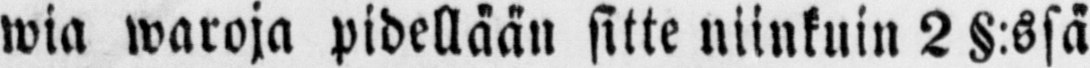wia waroja pidellään sitte niinkuin 2 §:ssä
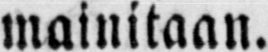mainitaan.
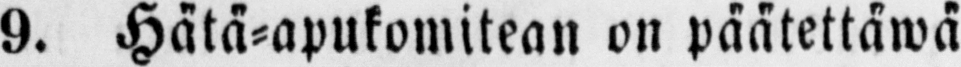§ 9. Hätä-apukomitean on päätettäwä
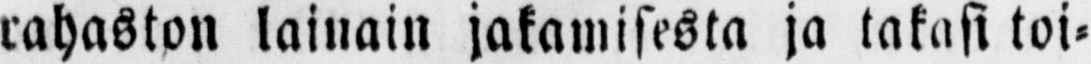rahaston lainain jakamisesta ja takasi toi-
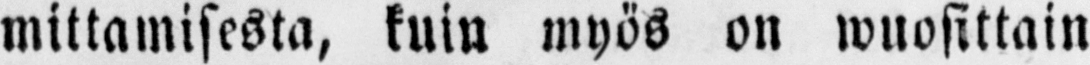mittamisesta, kuin myös on wuosittain
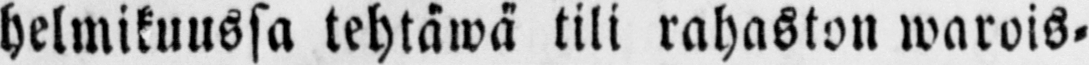helmikuussa tehtäwä tili rahaston warois-
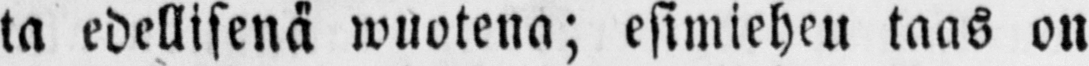ta edellisenä wuotena; esimieheu taas on
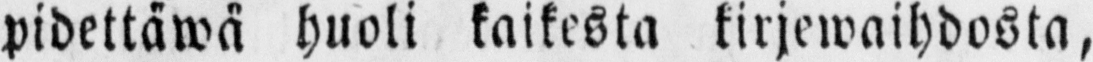pidettäwä huoli kaikesta kirjewaihdosta,
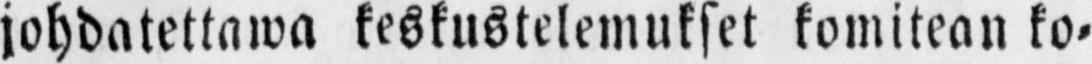johdatettawa keskustelemukset komitean ko-
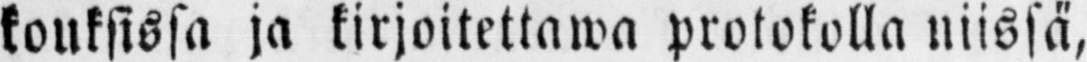kouksissa ja kirjoitettawa protokolla niissä,
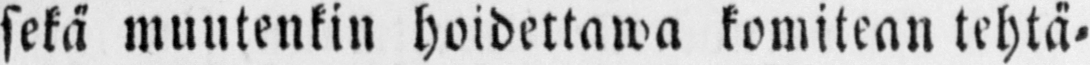sekä muutenkin hoidettawa komitean tehtä-
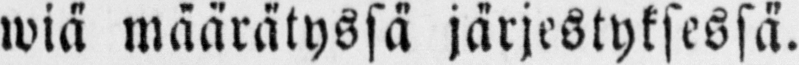wiä määrätyssä järjestyksessä.
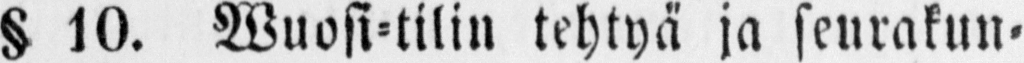§ 10. Wuosi-tilin tehtyä ja seurakun-
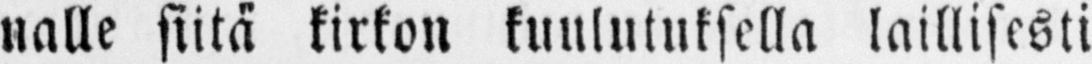nalle siitä kirkon kuulutuksella laillisesti
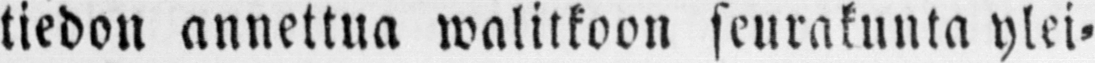tiedon annettua walitkoon seurakunta ylei-
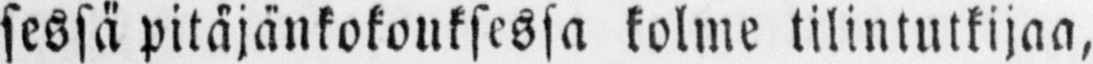sessä pitäjänkokouksessa kolme tilintutkijaa,
